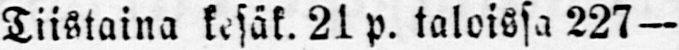Tiistaina kesäk. 21 p. taloissa 227 —
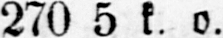270 5 k. o.
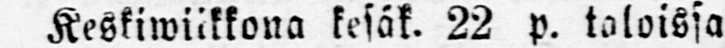Keskiwiikkona kesäk. 22 p. taloissa
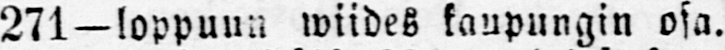271 —loppuun wiides kaupungin osa.
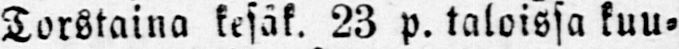Torstaina kesäk. 23 p. taloissa kuu-
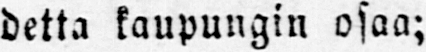detta kaupungin osaa;
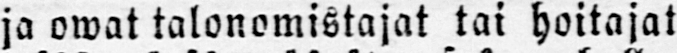ja owat talonomistajat tai hoitajat
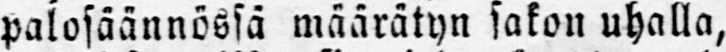palosäännössä määrätyn sakon uhalla,
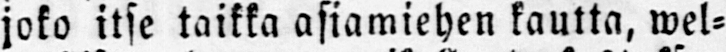joko itse taikka asiamiehen kautta, wel-
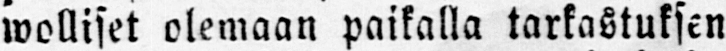wolliset olemaan paikalla tarkastuksen
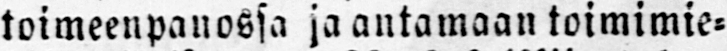toimeenpanossa ja antamaan toimimie-
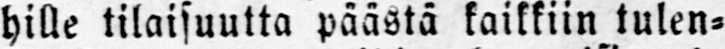hille tilaisuutta päästä kaikkiin tulen-
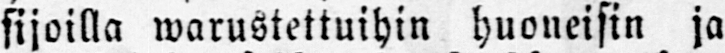sijoilla warustettuihin huoneisin ja
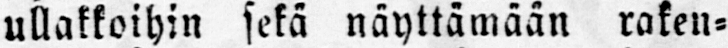ullakkoihin sekä näyttämään raken-
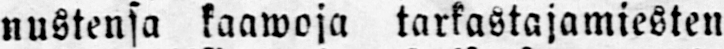nustensa kaawoja tarkastajamiesten
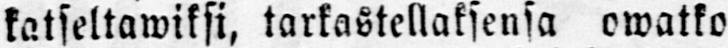katseltawiksi, tarkastellaksensa owatko
